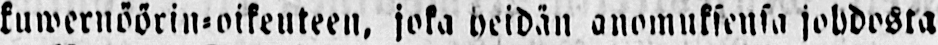kuwernöörin-oikeuteen, joka heidän anomuksensa johdosta
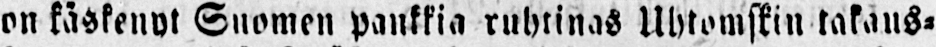on käskenyt Suomen pankkia ruhtinas Uhtomskin takaus-
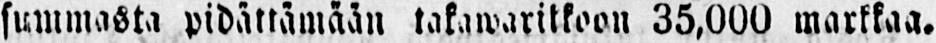summasta pidättämään takawaritkoon 35,000 markkaa.
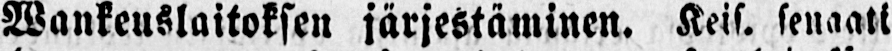Wankeuslaitoksen järjestäminen. Keis. senaati
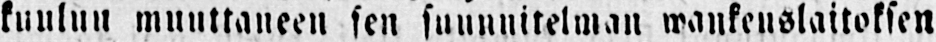kuuluu muuttaneen sen suunnitelman waukeuslaitoksen
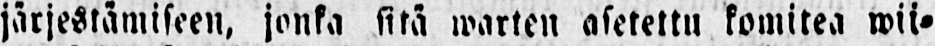järjestämiseen, jonka sitä warten asetettu komitea wii-
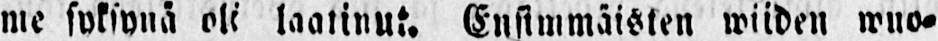me syksynä oli laatinut. Ensimmäisten wiiden muo-
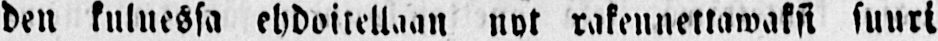den kuluessa ehdoitellaan nyt rakennettawaksi suuri
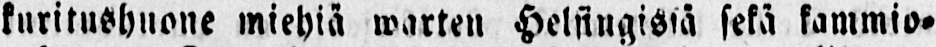kuritushuone miehiä warten Helsingistä sekä kammio-
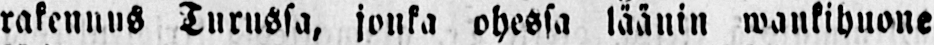rakennus Turussa, jonka ohessa läänin wankihuone
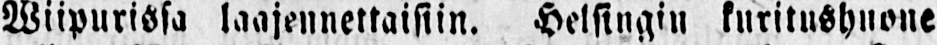Wiipurissa laajennettaisiin. Helsingin kuritushuone
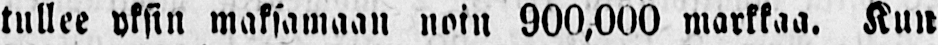tullee yksin maksamaan noin 900,000 markkaa. Kun
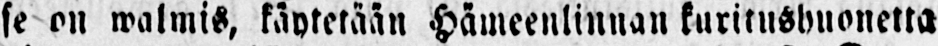se on walmis, käytetään Hämeenlinnan kuritushuonetta
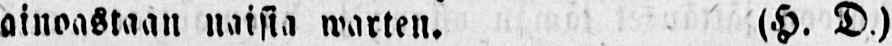ainoastaan naisia warten. (H. D.)
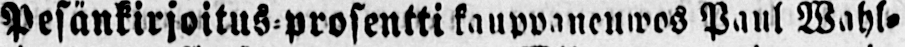Pesänkirjoitus - prosentti kaupvanenwos Paul Wahl-
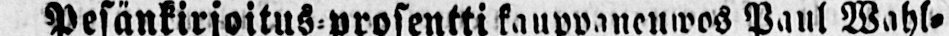wainajan pesästä on tuottanut Wiipurin maistraatin
